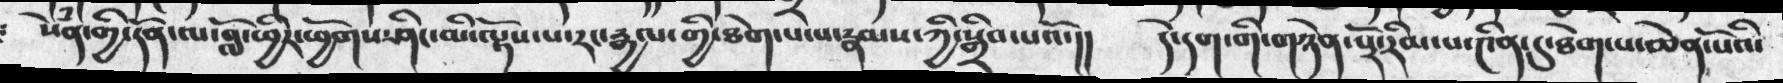སེཾན་གྱི་དོན་ལ་བློ་ཕྱིར་ཕྱོགས་ཤིང་མི་ལྟོས་པ་རང་རྒྱལ་གྱི་ཐེག་པ་པ་རྣམས་ཀྱི་སྒྲིབ་པའོ་།།  དེ་དག་གི་གཉེན་པོར་རིམ་པ་༤ིན་དུ་ཐེག་པ་ཆེན་པོའི་
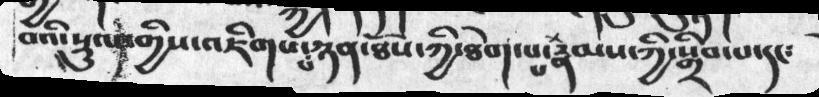བའི་སྡུལ་གྱིས་འཇིགས་པ་ཉན་ཐོས་ཀྱི་ཐེག་པ་རྣམས་ཀྱི་སྒྲིབ་པ་དང༴
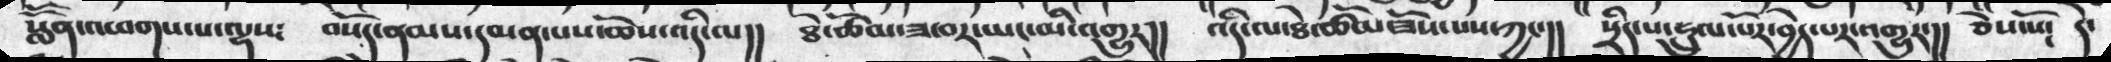སློོན་འཕགས་པ་ལྷས༴  བསོད་ནམས་དམན་པས་ཆོས་འདི་ལ།།  ཐེ་ཚོམ་ཟ་བར་ཡང་མི་འགྱུར།།  འདི་ལ་ཐེ་ཚོམ་ཟོས་པས་ཀྱང་།།  སྲིད་པ་ཧྲུལ་པོར་བྱེད་པར་འགྱུར་།།  ཅེས་སོ༴ དེ་
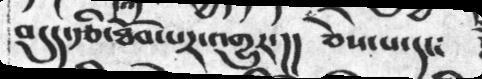བདུད་རྩི་ཐོབ་པར་འགྱུར་།། ཅེས་པ་དང༴
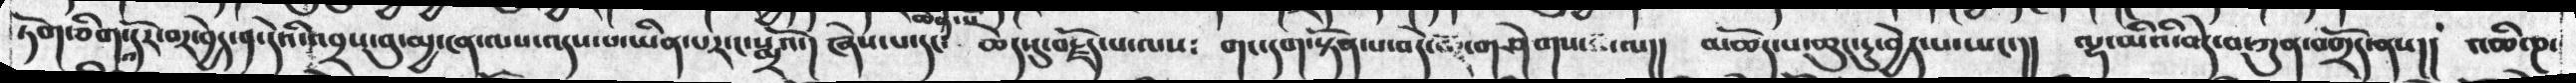ཏོག་ཅིག་འདོར་བར་བྱེད་ན་དེའི་འབྲས་བུ་མྱ་ངན་ལས་འདས་པ་ཡིན་པར་ང་སྨྲའོ་།  ཞེས་པ་དང༴   ཆེད་དུ་བརྗོད་པ་ལས༴   གང་དག་སྟོན་པ་བདེ་་བར་གཤེགས་པ་ལ།།   མཆོད་པ་ཆུང་ངུ་བྱེད་པ་ཡང་།།   ལྷ་མིའི་བདེ་བ་ཀུན་བགྲོད་ནས།།  འཆི་ཎ་
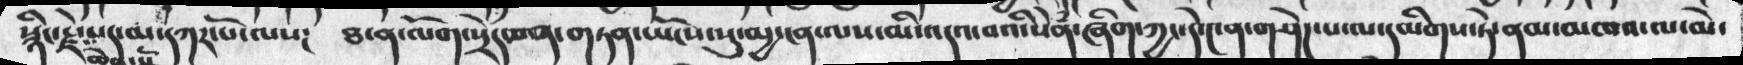སྙིང་རྗེ་ཆེན་པོ་པད་མ་དཀར་པོ་ལས༴    ཐ་ན་ལོག་སྲིད་ཅན་གཏན་ཡོངས་སུ་མྱ་ངན་ལས་མི་འདའ་བའི་སེཾན་ཞིག་ཀྱང་དེ་༤ན་གཤེཌ་པ་ལ་དམིགས་ཏེ་ནམ་མཁའ་ལ་མེ་
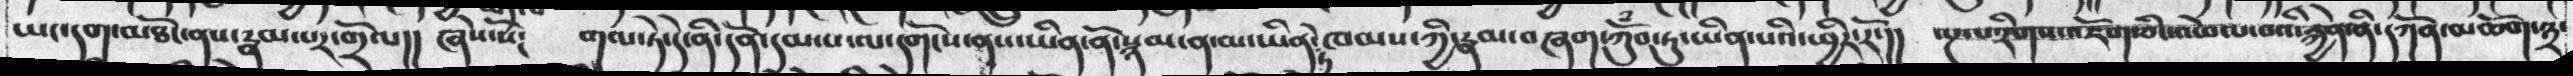ཡང་དག་མཐོང་ནས་རྣམ་པར་གྲོལ།། ཞེས་སོ༴ གལ་ཏེ་དེ་ནི་དོན་དམ་པ་ལ་དགོངས་ནས་ཡིན་ནོ་སྙམ་ན་མ་ཡིན་ཁམས་ཀྱི་རྣམ་བཞག་ཀོུཾབ་ཏུ་ཡིན་པའི་ཕྱིར་རོ་།། ལྔ་པ་རིགས་འཇོག་ཅིང་འཕེལ་བའི་རྐྱེན་ནི་དཀོན་མཆོག་༣་
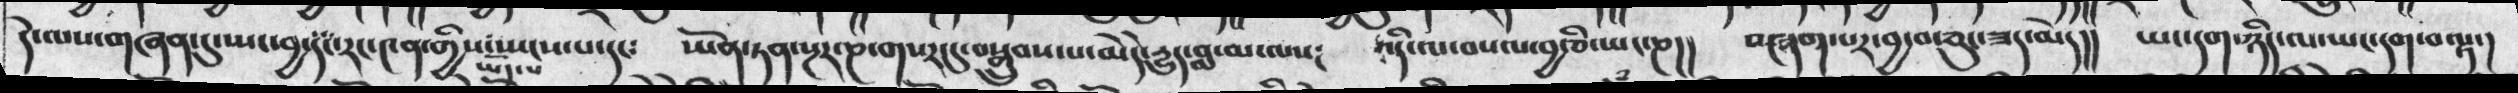དེ་ལས་གཞན་དུ་སྤང་བྱ་དང་རང་༤ན་གྱིས་སྤངས་པ་དང༴   ཡོན་ཏན་སྔར་ཎ་གསར་དུ་བསྒྲུབས་པ་མེདེ་དྱུད་བླ་མ་ལས༴   འདི་ལ་བསལ་བྱ་ཅི་ཡང་ཎ།།  བཞག་པར་བྱ་བ་ཅུང་ཟད་མེད།།  ཡང་དག་ཉིད་ལ་ཡང་དག་བལྟ་།
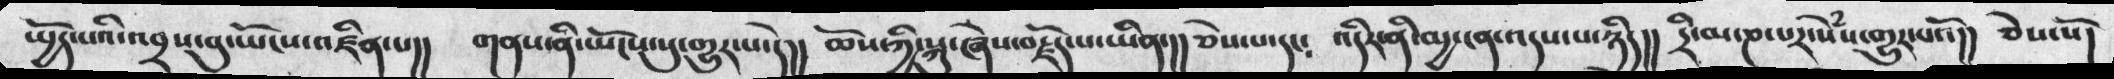སྤྱོད་པའི་འབྲས་བུ་ཡོངས་འཛིན་པ།།  གནས་ནི་ཡོངས་སུ་གྱུར་པ་དེ།།   ཆོས་ཀྱི་སྐུ་ཞེས་བརྗོད་པ་ཡིན་།།   ཅེས་པ་དང༴   འདིར་ནི་མྱ་ངན་འདས་པ་ཉིད།།  དྲི་མ་ཎ་པར་སེཾས་གྱུར་པའོ།།  ཅེས་སོ།
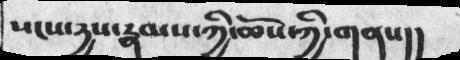སངས་དྱས་རྣམས་ཀྱི་ཆོས་ཀྱི་གནས།།
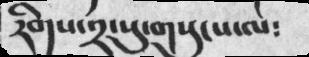རིགས་༢་སུ་གསུངས་ལ༴
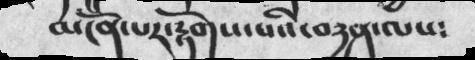མངོན་པར་རྟོགས་པའི་བརྱན་ལས༴
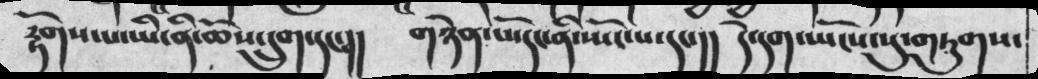རྟོགས་པ་ཡི་ནི་ཆོས་དྲུག་དང་།།  གཉེན་པོ་དང་ནི་སྤོང་པ་དང་།།  དེ་དག་ཡོངས་སུ་གཏུགས་
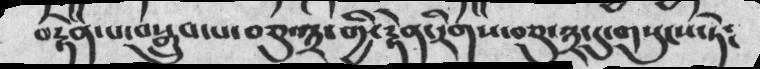བརྟེན་པ་བསྒྲུབ་པ་བཅུ་༣་གྱི་རྟེན་རིགས་བཅུ་༣་དུ་གསུངས་ཏེ༴
